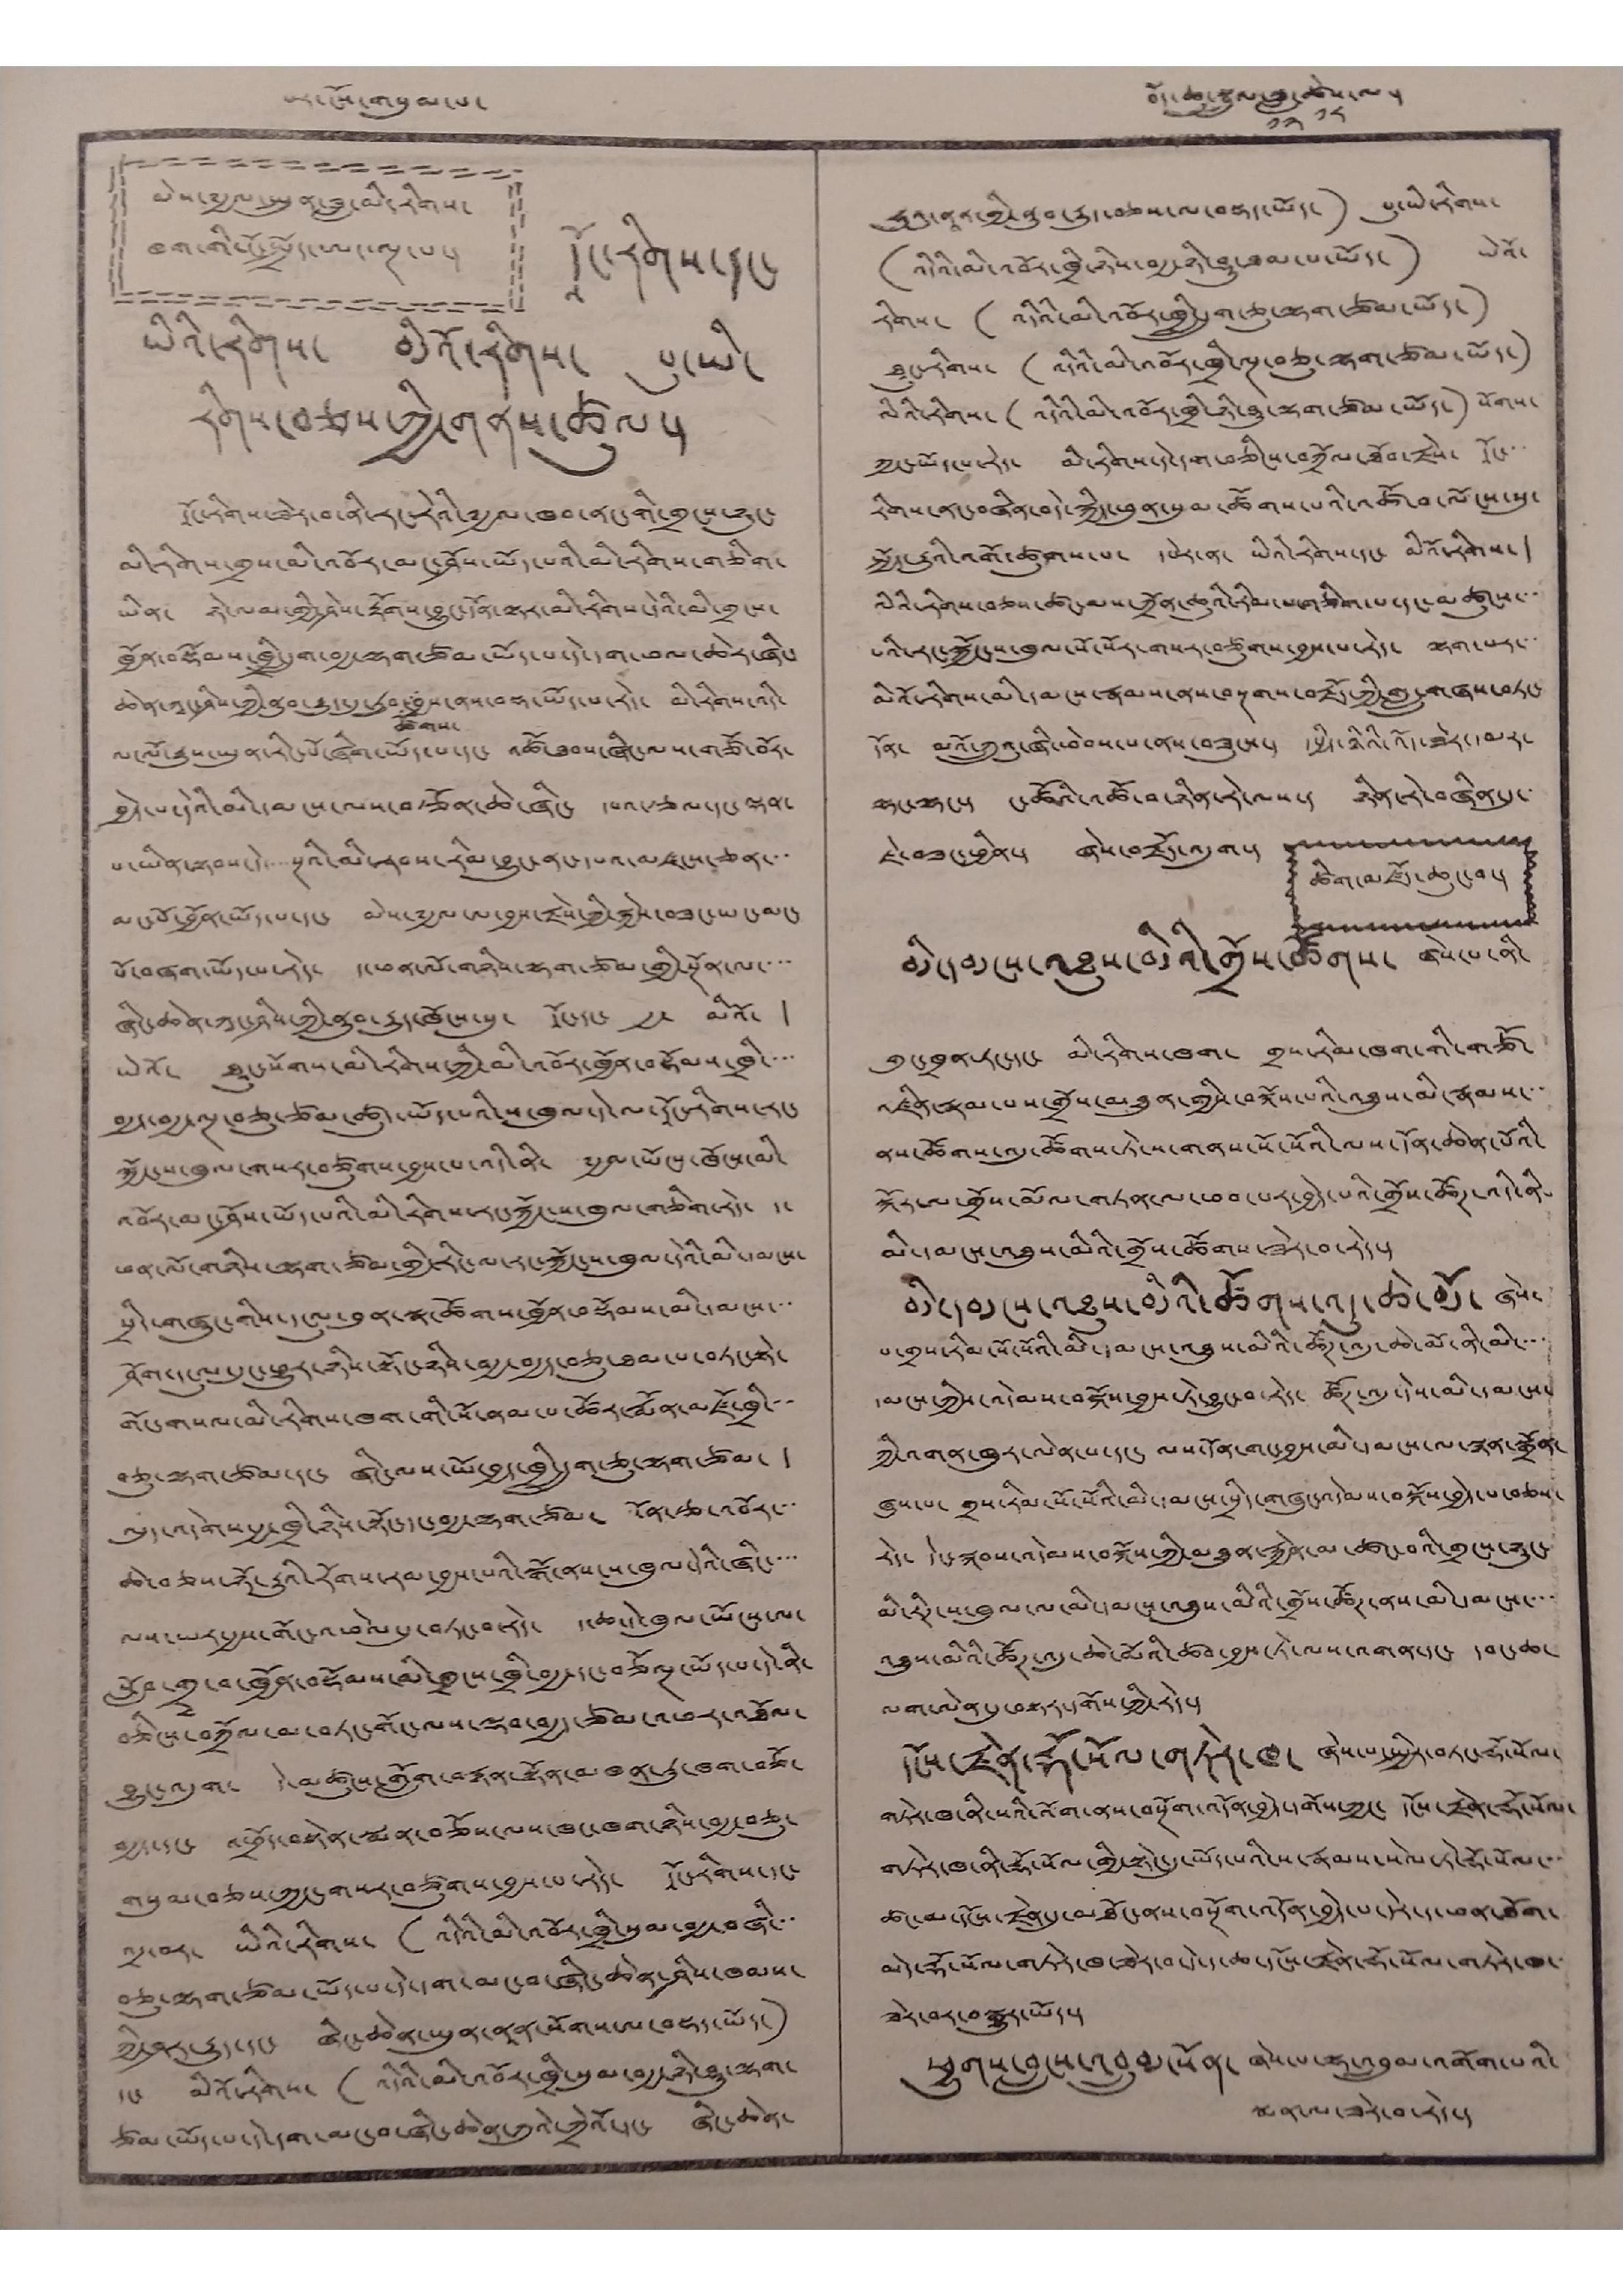པར་ངོས་གསུམ་པ་ བོད་ཆུ་སྦྲུལ་ཟླ་
༡༢
ཚེས་
༡༨
ལ་།
མེས་༸རྒྱལ་སྤུན་ཟླ་མི་རིགས་
ཁག་གི་ངོ་སྤྲོད་ཨང་ལྔ་པ་།
དཱོང་རིགས་དང་
ཡིའི་རིགས་ མིའོ་རིགས་ པུ་ཡི་
རིགས་བཅས་ཀྱི་གནས་ཚུལ་།
དཱོང་རིགས་ཟེར་བ་ནི་རང་རེའི་༸རྒྱལ་ཁབ་ནང་གི་གྲངས་ཉུང་
མི་རིགས་གྲས་མི་འབོར་མང་ཤོས་ཡོད་པའི་མི་རིགས་གཅིག་
ཡིན་ ཉེ་ལམ་གྱི་ཤེས་རྟོགས་བྱུང་དོན་ལྟར་མི་རིགས་དེའི་མི་གྲངས་
ཁྱོན་བསྡོམས་ཁྲི་དྲུག་བརྒྱ་ལྷག་ཙམ་ཡོད་པ་དེ་དག་ཕལ་ཆེར་ཞིང་
ཆེན་ཀཱ་ཤིས་ཀྱི་ནུབ་རྒྱུད་རུབ་
ཚོགས་
བྱས་ནས་བསྟ་ཡོད་པ་རེད་ མི་རིགས་འདི་
ལ་ལོ་རྒྱུས་ཡུན་རིང་པོ་ཞིག་ཡོད་པ་དང་ འཚོ་ཐབས་ཞིང་ལས་གཙོ་བོར་
བྱེད་པ་དེའི་མི་དམངས་ལས་བཙོན་ཆེ་ཞིང་ དཔའ་ཙལ་དང་ལྡན་
པ་ཡིན་སྟབས་དེ་་་་སྔའི་མི་རབས་རིམ་བྱུང་ནང་དཔའ་མཛངས་ཅན་་་
མང་པོ་བྱོན་ཡོད་པ་དང་ མེས་༸རྒྱལ་ལ་བྱས་རྗེས་ཀྱི་སྐྱེས་བཟང་ཡང་མང་
པོ་བཞག་ཡོད་པ་རེད་ ད་ཕན་ལོ་གཉིས་ལྷག་ཙམ་གྱི་སྔོན་ལ་་་་
ཞིང་ཆེན་ཀཱང་ཤིས་ཀྱི་ནུབ་རྒྱུད་ཁོངས་སུ་ དོང་རང་ རྒྱ་ མིའོ་
ཡེའོ་ ཐུང་སོགས་མི་རིགས་ཀྱི་མི་འབོར་ཁྱོན་བསྡོམས་ཁྲི་་་་
བརྒྱད་བརྒྱ་ལྔ་བཅུ་ཙམ་ཚུད་ཡོད་པའི་ས་ཁུལ་དེ་ལ་དཱོང་རིགས་རང་
སྐྱོང་ས་ཁུལ་གསར་བཙུགས་བྱས་པ་འདི་ནི་ ༸རྒྱལ་ཡོངས་ཁོངས་མི་
འབོར་མང་ཤོས་ཡོད་པའི་མི་རིགས་རང་སྐྱོང་ས་ཁུལ་གཅིག་རེད་ ད་
ཕན་ལོ་གཉིས་ལྷག་ཙམ་གྱི་རིང་ལ་རང་སྐྱོང་ས་ཁུལ་དེའི་མི་དམངས་
སྲིད་གཞུང་གིས་དངུལ་བུན་སྣ་ཚོགས་ཁྱོན་བསྡོམས་མི་དམངས་་་
ཤོག་དངུལ་དུང་ཕྱུར་ཉིས་སྟོང་ཉིས་བརྒྱ་བརྒྱད་བཅུ་ཐམ་པ་བཏང་སྟེ་
གོང་གསལ་མི་རིགས་ཁག་གི་སོ་ནམ་པ་ཚོར་རྨོན་མཛོ་ཁྲི་་་
བཅུ་ལྷག་ཙམ་དང་ ཞིང་ལས་ཡོ་བྱད་ཁྲི་དྲུག་ཅུ་ལྷག་ཙམ་ །
ལུད་འདེགས་རྒྱ་ཁྲི་ཉིས་སྟོང་དང་བརྒྱ་ལྷག་ཙམ་ སོན་རྩ་འབོར་་་
ཆེ་བཅས་ཉོ་རྒྱུའི་རོགས་རམ་བྱས་པའི་སྒོ་ནས་ས་ཁུལ་དེའི་ཞིང་་་་
ལས་ཡར་རྒྱས་གོང་འཕེལ་དུ་བཏང་བ་རེད་ ད་ཆ་དེ་ཁུལ་ཡོངས་ལ་
སློབ་གྲྭ་བ་ཁྱོན་བསྡོམས་མི་གྲངས་ཁྲི་བརྒྱ་དང་བཅོ་ལྔ་ཡོད་པ་དེ་ནི་
བཅིངས་བཀྲོལ་མ་བཏང་གོང་ལས་ལྡབ་བརྒྱད་ཙམ་འཕར་འཐོལ་
བྱུང་འདུག་ དེ་མཚུངས་གློག་བརྙན་སྟོན་མཁན་རུ་ཁག་བཅོ་
བརྒྱད་དང་ འཕྲོད་བསྟེན་སྨན་བཅོས་ལས་ཁང་ཁག་ཉིས་བརྒྱ་བཅུ་
གསུམ་བཅས་ཀྱང་གསར་བཙུགས་བྱས་པ་རེད་ དོང་རིགས་དང་
འདྲ་བར་ ཡིའི་རིགས་ (འདིའི་མི་འབོར་ཁྲི་སུམ་བརྒྱ་བཞི་་་
བཅུ་ལྷག་ཙམ་ཡོད་པ་དེ་དག་མང་བ་ཞིང་ཆེན་ཤིས་ཁམས་
ཀྱི་ཤར་རྒྱུད་དང་ ཞིང་ཆེན་ཡུན་ནན་སོགས་ལ་བསྡད་ཡོད་)
དང་ མིའོ་རིགས་ (འདིའི་མི་འབོར་ཁྲི་སུམ་བརྒྱ་ཉི་ཤུ་ལྷག་
ཙམ་ཡོད་པ་དེ་དག་མང་བ་ཞིང་ཆེན་ཀུའེ་ཀྲེའོ་དང་ ཞིང་ཆེན་
ཧུའུ་ནཱན་གྱུ་ནུབ་རྒྱུད་བཅས་ལ་བསྡད་ཡོད་) པུ་ཡི་རིགས་
( འདིའི་མི་འབོར་ཁྲི་ཉིས་བརྒྱ་ཉི་ཤུ་ཐམ་པ་ཡོད་ ) ཡེའོ་
རིགས་ ( འདིའི་མི་འབོར་ཁྲི་དྲུག་ཅུ་ལྷག་ཙམ་ཡོད་)
ཐུང་རིགས་ (འདིའི་མི་འབོར་ཁྲི་ལྔ་བཅུ་ལྷག་ཙམ་ཡོད་)
ལིའི་རིགས་ ( འདིའི་མི་འབོར་ཁྲི་ཉི་ཤུ་ལྷག་ཙམ་ཡོད་)་སོགས་
ཀྱང་ཡོད་པ་རེད་ མི་རིགས་དེ་དག་བཅིངས་བཀྲོལ་ཐོབ་རྗེས་ དོང་་་
རིགས་ནང་བཞིན་བདེ་སྐྱིད་ཕུན་སུམ་ཚོགས་པའི་འཚོ་བ་ལོངས་སུ་
སྤྱོད་རྒྱུའི་འགོ་ཚུགས་པ་ དཔེར་ན་ ཡིའི་རིགས་དང་ མིའོ་རིགས་།
ལིའི་རིགས་བཅས་ཚང་མས་ཀྲོན་ཆུའི་རིམ་པ་གཅིག་པ་དང་མཚུངས་་་
པའི་རང་སྐྱོང་ས་ཁུལ་སོ་སོར་གསར་བཙུགས་བྱས་པ་རེད་ ལྷག་པར་་་
མིའོ་རིགས་མི་དམངས་རྣམས་ནས་བསྔགས་བརྗོད་ཀྱི་གླུ་གཞས་བཏང་
དོན་ མའོ་ཀྲུའུ་ཞི་ཕེབས་པ་ནས་བཟུངས་། དཔྱིད་ཉིའི་འོད་ཟེར་དཔར་
ལྷང་ལྷང་། ང་ཚོའི་འཚོ་བ་ཉིན་རེ་ལས་། ཉིན་རེ་བཞིན་དུ་་
ཇེ་བཟང་ཕྱིན་། ཞེས་བརྗོད་འདུག་།
ཚིག་མཛོད་ཆུང་བ་།
མི་དམངས་འཐུས་མིའི་གྲོས་ཚོགས་ ཞེས་པ་ནི་
གུང་ཁྲན་ཏང་དང་ མི་རིགས་ཁག་ གྲས་རིམ་ཁག་གི་གཙོ་
འཛིན་རྣམ་པས་གྲོས་མཐུན་གྱིས་བསྐོས་པའི་འཐུས་མི་རྣམས་་་
ནས་ཚོགས་འདུ་ཚོགས་ཏེ་ས་གནས་སོ་སོའི་ལས་དོན་ཆེན་པོའི་
སྐོར་ལ་གྲོས་མོལ་གཏན་ལ་ཕབ་པར་བྱེད་པའི་གྲོས་ཚོཊ་འདི་ནི་
མི་དམངས་འཐུས་མིའི་གྲོས་ཚོགས་ཟེར་བ་རེད་།
མི་དམངས་འཐུས་མིའི་ཚོགས་འདུ་ཆེ་མོ་ཞེས་
པ་གྲས་རིམ་སོ་སོའི་མི་དམངས་འཐུས་མིའི་ཚོཊ་འདུ་ཆེ་མོ་ནི་མི་་་
དམངས་ཀྱིས་འདེམས་བསྐོས་བྱས་ཏེ་བྱུང་བ་རེད་ ཚོཊ་འདུ་དེས་མི་དམངས་
ཀྱི་འགན་ཁུར་ལེན་པ་དང་ ལས་དོན་གང་བྱས་མི་དམངས་ལ་སྙན་སྒྲོན་
ཞུས་པ་ གྲས་རིམ་སོ་སོའི་མི་དམངས་སྲིད་གཞུང་འདེམས་བསྐོས་བྱེད་པ་བཅས་
རེད་ དེང་སྐབས་འདེམས་བསྐོས་ཀྱི་མཐུན་རྐྱེན་མ་ཚང་བའི་གྲངས་ཉུང་
མི་རིཊ་ས་ཁུལ་ལ་མི་དམངས་འཐུས་མིའི་གྲོས་ཚོཊ་ནས་མི་དམངས་་་
འཐུས་མིའི་ཚོཊ་འདུ་ཆེ་མོའི་ཚབ་བྱས་ཏེ་ལས་འགན་དང་ དབང་ཆ་
ལག་ལེན་དུ་བསྟར་དགོས་ཀྱི་རེད་།
དངོས་རྗེན་རྡོ་སོལ་གཏེར་ཁ་ ཞེས་པ་སྤྱིར་བཏང་རྡོ་སོལ་
གཏེར་ཁ་ནི་སའི་འོག་ནས་བསྔོག་འདོན་བྱེད་དགོས་ཀྱང་ དངོས་རྗེན་རྡོ་སོལ་
གཏེར་ཁ་ནི་རྡོ་སོལ་གྱི་སྟེང་དུ་ཡོད་པའི་ས་རྣམས་སེལ་ཏེ་རྡོ་སོལ་་་
ཚང་མ་དངོས་རྗེན་དུ་མཐོང་ནས་བསྔོཊ་འདོན་བྱེད་པ་དེར་ད་ཕན་ཐོག་
མེད་རྡོ་སོལ་གཏེར་ཁ་ཟེར་བ་དེ་ད་ཆ་དངོས་རྗེན་རྡོ་སོལ་གཏེར་ཁ་
ཟེར་བར་བསྒྱུར་ཡོད་།
ཕྱུགས་བླངས་འབྲུམ་སོན་ ཞེས་པ་ལྷ་འབྲུམ་འགོག་པའི་
སྨན་ལ་ཟེར་བ་རེད་།
